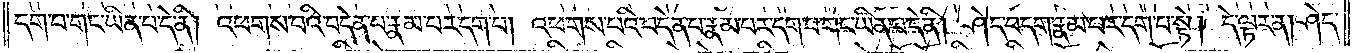དག་པ་གང་ཡིན་པ་དེ་ནི། འཕགས་པའི་བདེན་པ་རྣམ་པར་དག་པ། འཕགས་པའི་བདེན་པ་རྣམ་པར་དག་པ་གང་ཡིན་པ་དེ་ནི། ཤེད་བདག་རྣམ་པར་དག་པ་སྟེ། དེ་ལྟར་ན། ཤེད་
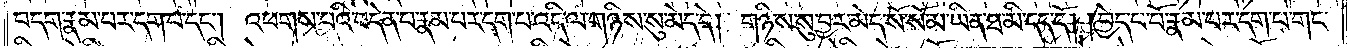བདག་རྣམ་པར་དག་པ་དང༌། འཕགས་པའི་བདེན་པ་རྣམ་པར་དག་པ་འདི་ལ་གཉིས་སུ་མེད་དེ། གཉིས་སུ་བྱར་མེད་སོ་སོ་མ་ཡིན་ཐ་མི་དད་དོ། །བྱེད་པ་པོ་རྣམ་པར་དག་པ་གང་
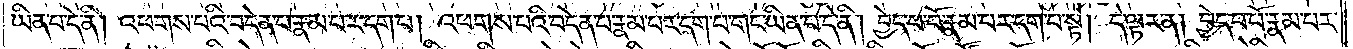ཡིན་པ་དེ་ནི། འཕགས་པའི་བདེན་པ་རྣམ་པར་དག་པ། འཕགས་པའི་བདེན་པ་རྣམ་པར་དག་པ་གང་ཡིན་པ་དེ་ནི། བྱེད་པ་པོ་རྣམ་པར་དག་པ་སྟེ། དེ་ལྟར་ན། བྱེད་པ་པོ་རྣམ་པར་
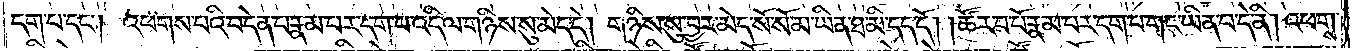དག་པ་དང༌། འཕགས་པའི་བདེན་པ་རྣམ་པར་དག་པ་འདི་ལ་གཉིས་སུ་མེད་དེ། གཉིས་སུ་བྱར་མེད་སོ་སོ་མ་ཡིན་ཐ་མི་དད་དོ། །ཚོར་བ་པོ་རྣམ་པར་དག་པ་གང་ཡིན་པ་དེ་ནི། འཕགས་
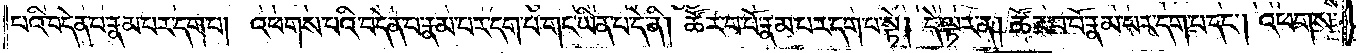པའི་བདེན་པ་རྣམ་པར་དག་པ། འཕགས་པའི་བདེན་པ་རྣམ་པར་དག་པ་གང་ཡིན་པ་དེ་ནི། ཚེར་བ་པོ་རྣམ་པར་དག་པ་སྟེ། །དེ་ལྟར་ན། ཚོར་བ་པོ་རྣམ་པར་དག་པ་དང༌། འཕགས་
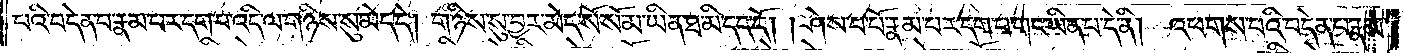པའི་བདེན་པ་རྣམ་པར་དག་པ་འདི་ལ་གཉིས་སུ་མེད་དེ། གཉིས་སུ་བྱར་མེད་སོ་སོ་མ་ཡིན་ཐ་མི་དད་དོ། །ཤེས་པ་པོ་རྣམ་པར་དག་པ་གང་ཡིན་པ་དེ་ནི། འཕགས་པའི་བདེན་པ་རྣམ་
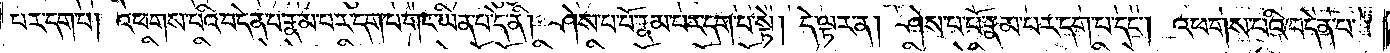པར་དག་པ། འཕགས་པའི་བདེན་པ་རྣམ་པར་དག་པ་གང་ཡིན་པ་དེ་ནི། ཤེས་པ་པོ་རྣམ་པར་དག་པ་སྟེ། དེ་ལྟར་ན། ཤེས་པ་པོ་རྣམ་པར་དག་པ་དང༌། འཕགས་པའི་བདེན་པ་
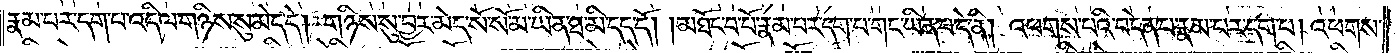རྣམ་པར་དག་པ་འདི་ལ་གཉིས་སུ་མེད་དེ། གཉིས་སུ་བྱར་མེད་སོ་སོ་མ་ཡིན་ཐ་མི་དད་དོ། །མཐོང་བ་པོ་རྣམ་པར་དག་པ་གང་ཡིན་པ་དེ་ནི། འཕགས་པའི་བདེན་པ་རྣམ་པར་དག་པ། འཕགས་
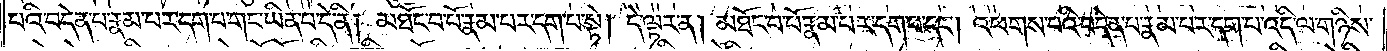པའི་བདེན་པ་རྣམ་པར་དག་པ་གང་ཡིན་པ་དེ་ནི། མཐོང་བ་པོ་རྣམ་པར་དག་པ་སྟེ། དེ་ལྟར་ན། མཐོང་བ་པོ་རྣམ་པར་དག་པ་དང༌། འཕགས་པའི་བདེན་པ་རྣམ་པར་དག་པ་འདི་ལ་གཉིས་
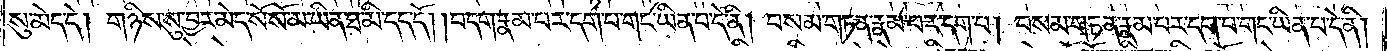སུ་མེད་དེ། གཉིས་སུ་བྱར་མེད་སོ་སོ་མ་ཡིན་ཐ་མི་དད་དོ། །བདག་རྣམ་པར་དག་པ་གང་ཡིན་པ་དེ་ནི། བསམ་གཏན་རྣམ་པར་དག་པ། བསམ་གཏན་རྣམ་པར་དག་པ་གང་ཡིན་པ་དེ་ནི།
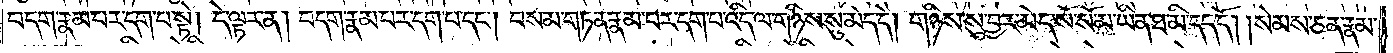བདག་རྣམ་པར་དག་པ་སྟེ། དེ་ལྟར་ན། བདག་རྣམ་པར་དག་པ་དང༌། བསམ་གཏན་རྣམ་པར་དག་པ་འདི་ལ་གཉིས་སུ་མེད་དེ། གཉིས་སུ་བྱར་མེད་སོ་སོ་མ་ཡིན་ཐ་མི་དད་དོ། །སེམས་ཅན་རྣམ་
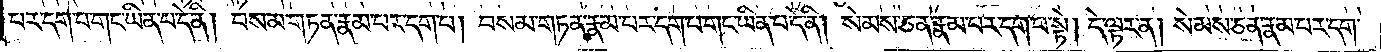པར་དག་པ་གང་ཡིན་པ་དེ་ནི། བསམ་གཏན་རྣམ་པར་དག་པ། བསམ་གཏན་རྣམ་པར་དག་པ་གང་ཡིན་པ་དེ་ནི། སེམས་ཅན་རྣམ་པར་དག་པ་སྟེ། དེ་ལྟར་ན། སེམས་ཅན་རྣམ་པར་དག་
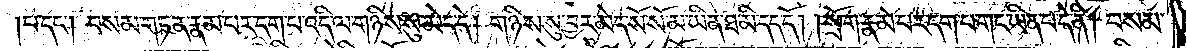པ་དང༌། བསམ་གཏན་རྣམ་པར་དག་པ་འདི་ལ་གཉིས་སུ་མེད་དེ། གཉིས་སུ་བྱར་མེད་སོ་སོ་མ་ཡིན་ཐ་མི་དད་དོ། །སྲོག་རྣམ་པར་དག་པ་གང་ཡིན་པ་དེ་ནི། བསམ་
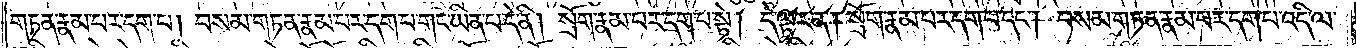གཏན་རྣམ་པར་དག་པ། བསམ་གཏན་རྣམ་པར་དག་པ་གང་ཡིན་པ་དེ་ནི། སྲོག་རྣམ་པར་དག་པ་སྟེ། དེ་ལྟར་ན། སྲོག་རྣམ་པར་དག་པ་དང༌། བསམ་གཏན་རྣམ་པར་དག་པ་འདི་ལ་
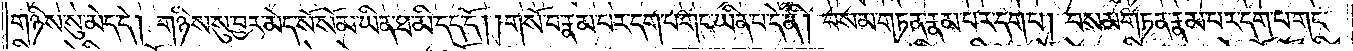གཉིས་སུ་མེད་དེ། གཉིས་སུ་བྱར་མེད་སོ་སོ་མ་ཡིན་ཐ་མི་དད་དོ། །གསོ་བ་རྣམ་པར་དག་པ་གང་ཡིན་པ་དེ་ནི། བསམ་གཏན་རྣམ་པར་དག་པ། བསམ་གཏན་རྣམ་པར་དག་པ་གང་
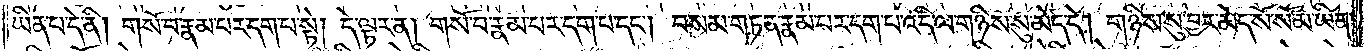ཡིན་པ་དེ་ནི། གསོ་བ་རྣམ་པར་དག་པ་སྟེ། དེ་ལྟར་ན། གསོ་བ་རྣམ་པར་དག་པ་དང༌། བསམ་གཏན་རྣམ་པར་དག་པ་འདི་ལ་གཉིས་སུ་མེད་དེ། གཉིས་སུ་བྱར་མེད་སོ་སོ་མ་ཡིན་
